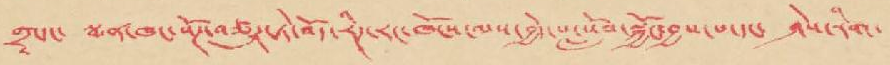གྲྭ་དང་ སྨན་ཁང་སོཊ་བཙུཊ་ཏེ་བོད་རིཊ་རང་ཁོངས་ལས་བྱེད་པ་སློབ་སྐྱོང་བྱས་པ་དང་ ཤེས་རིག་
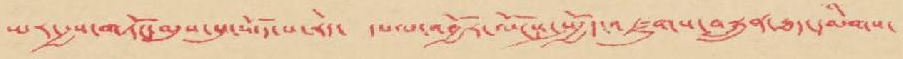ཡར་རྒྱས་གཏོང་མུས་སུ་ཡོད་པ་རེད་ དཔལ་འབྱོར་ལོངས་སྤྱོད་འཛུགས་བསྐྲུན་ཐད་དམིགས་
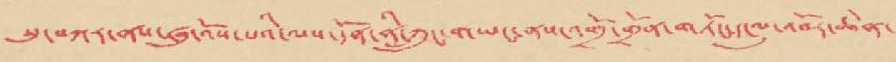སུ་བཀར་ནས་ཞུ་འོས་པའི་ལས་དོན་ནི་ཀྲུང་གཡང་ནས་འགྲོ་གྲོན་གཏོང་དངུལ་འབོར་ཆེན་
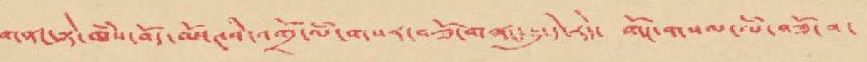གནང་སྟེ་ཁཾས་བོད་མོ་ཊའི་འགྲོ་ལམ་གསར་བཟོ་གནང་སུ་དེ་རེད་ གོང་གསལ་ལཾ་བཟོ་བ་
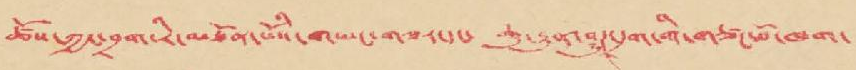ཚོས་ཀྱང་བྲག་རི་མཐོན་པོའི་གཡང་གཟར་དང་ ཆུ་རྒྱུན་ཤུཊ་དྲག་གི་གཙང་པོ་ཁག་
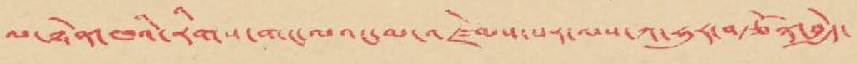ལ་ཉེན་ཁའི་རིགས་གང་ལའང་མ་འཛེམས་པར་ལས་ཀ་ཧུར་བརྩོན་བྱེད་
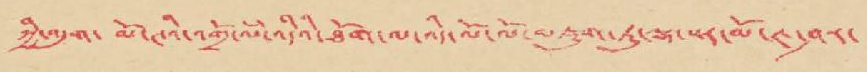ཀྱི་འདུག་ མོ་ཊའི་འགྲོ་ལཾ་འདིའི་ཐོག་ལ་འདི་ལོ་མཇུག་ཏུ་ལྷ་སར་མོ་ཊ་ཤར་
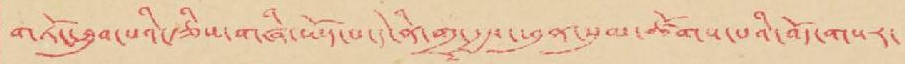གཏོང་ཐུབ་པའི་རྩིས་གཞི་ཡོད་པ་དེ་ནི་གྲྭ་རྒྱབ་ཕུན་སུམ་ཚོགས་པའི་བོད་གསར་
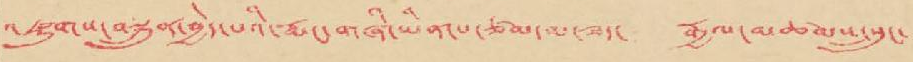འཛུགས་བསྐྲུན་བྱེད་པའི་རྨང་གཞི་ཡིན་པ་ཙམ་མ་ཟད་ རྒྱལ་མཚམས་སྲུང་
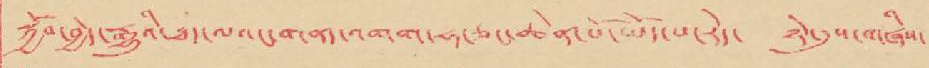སྐྱོབ་བྱེད་རྒྱུའི་ཐད་ལའང་གནད་འགག་ཧ་ཅང་ཆེན་པོ་ཡོད་པ་རེད་ ཉེ་དུས་གཞིས་
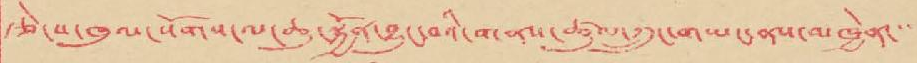རྩེ་ས་ཁུལ་སོགས་ལ་ཆུ་སྐྱོན་བྱུང་བའི་གནས་ཚུལ་ཀྲུང་གཡང་ནས་མཁྱེན་་་
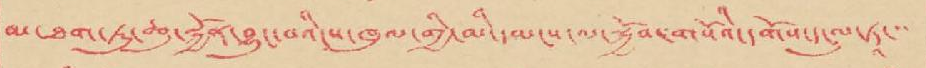མ་ཐག་ཏུ་ཆུ་སྐྱོན་བྱུང་བའི་ས་ཁུལ་གྱི་མི་དམངས་ལ་སྐྱོབ་གསོའི་དགོས་དངུལ་ཏཱ་་་
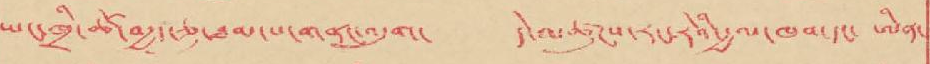ཡང་ཁྲི་ཚོ་བརྒྱད་ཅུ་ཐམ་པ་གནང་འདུག་ དེ་མཚུངས་རང་རེའི་རྒྱལ་ཁབ་དང་ ཨིན་
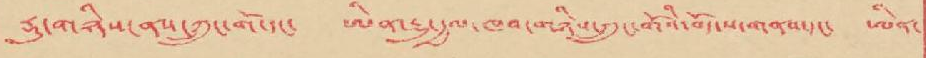རྡུ་གཉིས་ནས་ཀྲུང་གོ་དང་ ཨིན་རྡུ་རྒྱལ་ཁབ་གཉིས་ཀྲུང་གོའི་བོད་ས་གནས་དང་ ཨིན་
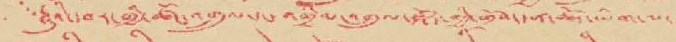རྡུའི་བར་གྱི་ཚོང་འགྲུལ་དང་འགྲིམ་འགྲུལ་སྐོར་གྱི་གྲོས་དོན་ཚོགས་ཡིག་ལ་
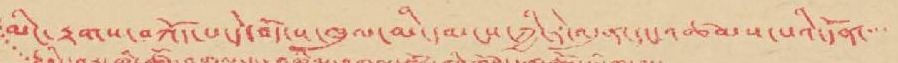མིང་རྟགས་བཀོད་པ་དེ་བོད་པ་ཁུལ་མི་དམངས་ཀྱི་རེ་འདུན་དང་འཚམས་པའི་དོན་་་་
